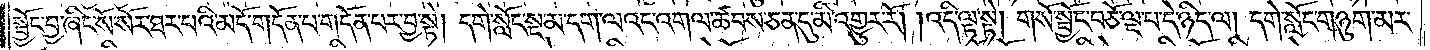སྦྱོང་བྱ་ཞིང་སོ་སོར་ཐར་པའི་མདོ་གདོན་པ་གདོན་པར་བྱ་སྟེ། དགེ་སློང་སྔ་མ་དག་ལའང་འགལ་ཚབས་ཅན་དུ་མི་འགྱུར་རོ། །འདི་ལྟ་སྟེ། གསོ་སྦྱོང་བཅོ་ལྔ་པ་དེ་ཉིད་ལ། དགེ་སློང་གཉུག་མར་
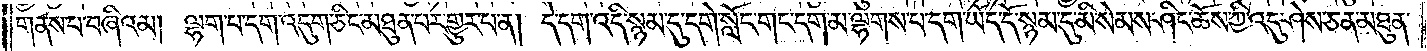གནས་པ་བཞིའམ། ལྷག་པ་དག་འདུག་ཅིང་མཐུན་པར་གྱུར་པ་ན། དེ་དག་འདི་སྙམ་དུ་དགེ་སློང་གང་དག་མ་ལྷགས་པ་དག་ཡོད་དོ་སྙམ་དུ་མི་སེམས་ཤིང་ཆོས་ཀྱི་འདུ་ཤེས་ཅན་མཐུན་
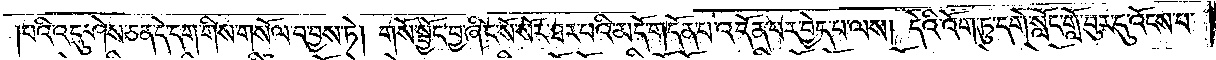པའི་འདུ་ཤེས་ཅན་དེ་དག་གིས་གསོལ་བ་བྱས་ཏེ། གསོ་སྦྱོང་བྱ་ཞིང་སོ་སོར་ཐར་པའི་མདོ་གདོན་པ་འདོན་པར་བྱེད་པ་ལས། དེའི་འོག་ཏུ་དགེ་སློང་གློ་བུར་དུ་འོངས་པ་
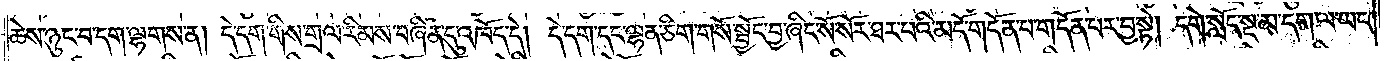ཆེས་ཉུང་བ་དག་ལྷགས་ན། དེ་དག་གིས་གྲལ་རིམས་བཞིན་དུ་འཁོད་དེ། དེ་དག་དང་ལྷན་ཅིག་གསོ་སྦྱོང་བྱ་ཞིང་སོ་སོར་ཐར་པའི་མདོ་གདོན་པ་གདོན་པར་བྱ་སྟེ། དགེ་སློང་སྔ་མ་དག་ལ་ཡང་
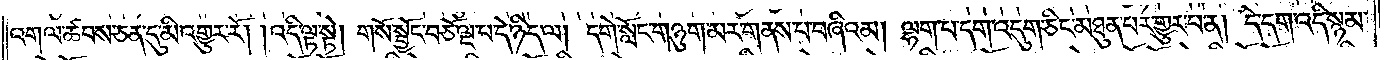འགལ་ཚབས་ཅན་དུ་མི་འགྱུར་རོ། །འདི་ལྟ་སྟེ། གསོ་སྦྱོང་བཅོ་ལྔ་པ་དེ་ཉིད་ལ། དགེ་སློང་གཉུག་མར་གནས་པ་བཞིའམ། ལྷག་པ་དག་འདུག་ཅིང་མཐུན་པར་གྱུར་པ་ན། དེ་དག་འདི་སྙམ་
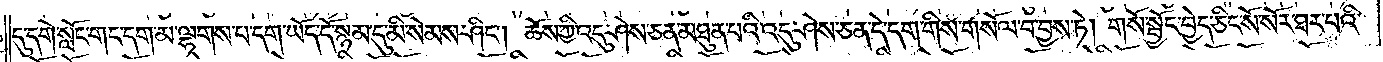དུ་དགེ་སློང་གང་དག་མ་ལྷགས་པ་དག་ཡོད་དོ་སྙམ་དུ་མི་སེམས་ཤིང༌། ཆོས་ཀྱི་འདུ་ཤེས་ཅན་མཐུན་པའི་འདུ་ཤེས་ཅན་དེ་དག་གིས་གསོལ་བ་བྱས་ཏེ། གསོ་སྦྱོང་བྱེད་ཅིང་སོ་སོར་ཐར་པའི་
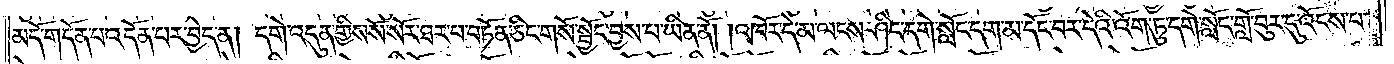མདོ་གདོན་པ་འདོན་པར་བྱེད་ན། དགེ་འདུན་གྱིས་སོ་སོར་ཐར་པ་བཏོན་ཅིང་གསོ་སྦྱོང་བྱས་པ་ཡིན་ནོ། །འཁོར་དེ་མ་ལངས་ཤིང་དགེ་སློང་དག་མ་དོང་བར་དེའི་འོག་ཏུ་དགེ་སློང་གློ་བུར་དུ་འོངས་པ་
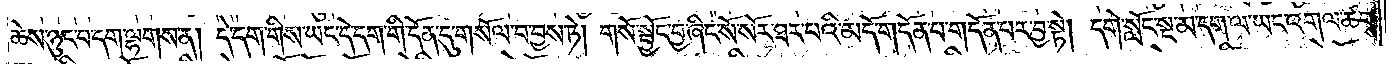ཆེས་ཉུང་བ་དག་ལྷགས་ན། དེ་དག་གིས་ཡང་དེ་དག་གི་དོན་དུ་གསོལ་བ་བྱས་ཏེ། གསོ་སྦྱོང་བྱ་ཞིང་སོ་སོར་ཐར་པའི་མདོ་གདོན་པ་གདོན་པར་བྱ་སྟེ། དགེ་སློང་སྔ་མ་དག་ལ་ཡང་འགལ་ཚབས་
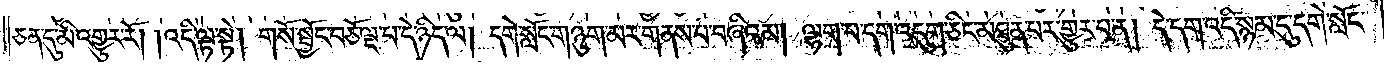ཅན་དུ་མི་འགྱུར་རོ། །འདི་ལྟ་སྟེ། གསོ་སྦྱོང་བཅོ་ལྔ་པ་དེ་ཉིད་ལ། དགེ་སློང་གཉུག་མར་གནས་པ་བཞིའམ། ལྷག་པ་དག་འདུག་ཅིང་མཐུན་པར་གྱུར་པ་ན། དེ་དག་འདི་སྙམ་དུ་དགེ་སློང་
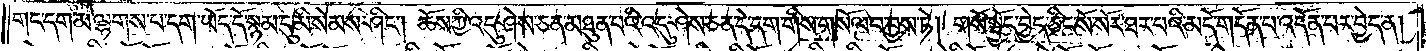གང་དག་མ་ལྷགས་པ་དག་ཡོད་དོ་སྙམ་དུ་མི་སེམས་ཤིང༌། ཆོས་ཀྱི་འདུ་ཤེས་ཅན་མཐུན་པའི་འདུ་ཤེས་ཅན་དེ་དག་གིས་གསོལ་བ་བྱས་ཏེ། གསོ་སྦྱོང་བྱེད་ཅིང་སོ་སོར་ཐར་པའི་མདོ་གདོན་པ་འདོན་པར་བྱེད་ན།
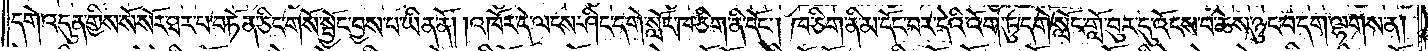དགེ་འདུན་གྱིས་སོ་སོར་ཐར་པ་བཏོན་ཅིང་གསོ་སྦྱོང་བྱས་པ་ཡིན་ནོ། །འཁོར་དེ་ལངས་ཤིང་དགེ་སློང་ཁ་ཅིག་ནི་དོང༌། ཁ་ཅིག་ནི་མ་དོང་བར་དེའི་འོག་ཏུ་དགེ་སློང་གློ་བུར་དུ་འོངས་པ་ཆེས་ཉུང་བ་དག་ལྷགས་ན།
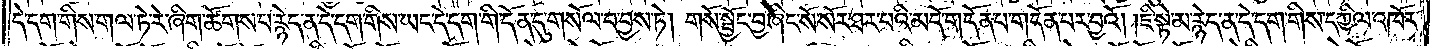དེ་དག་གིས་གལ་ཏེ་རེ་ཞིག་ཚོགས་པ་རྙེད་ན་དེ་དག་གིས་ཡང་དེ་དག་གི་དོན་དུ་གསོལ་བ་བྱས་ཏེ། གསོ་སྦྱོང་བྱ་ཞིང་སོ་སོར་ཐར་བའི་མདོ་གདོན་པ་གདོན་པར་བྱའོ། །ཇི་སྟེ་མ་རྙེད་ན་དེ་དག་གིས་དཀྱིལ་འཁོར་
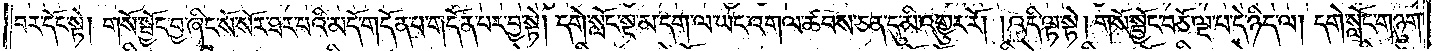བར་དོང་སྟེ། གསོ་སྦྱོང་བྱ་ཞིང་སོ་སོར་ཐར་པའི་མདོ་གདོན་པ་གདོན་པར་བྱ་སྟེ། དགེ་སློང་སྔ་མ་དག་ལ་ཡང་འགལ་ཚབས་ཅན་དུ་མི་འགྱུར་རོ། །འདི་ལྟ་སྟེ། གསོ་སྦྱོང་བཅོ་ལྔ་པ་དེ་ཉིད་ལ། དགེ་སློང་གཉུག་
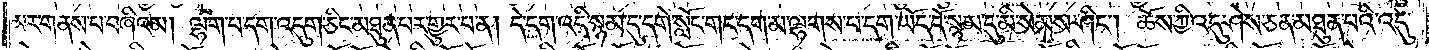མར་གནས་པ་བཞིའམ། ལྷག་པ་དག་འདུག་ཅིང་མཐུན་པར་གྱུར་པ་ན། དེ་དག་འདི་སྙམ་དུ་དགེ་སློང་གང་དག་མ་ལྷགས་པ་དག་ཡོད་དོ་སྙམ་དུ་མི་སེམས་ཤིང༌། ཆོས་ཀྱི་འདུ་ཤེས་ཅན་མཐུན་པའི་འདུ་
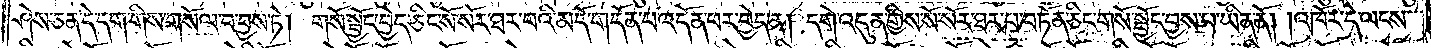ཤེས་ཅན་དེ་དག་གིས་གསོལ་བ་བྱས་ཏེ། གསོ་སྦྱོང་བྱེད་ཅིང་སོ་སོར་ཐར་པའི་མདོ་གདོན་པ་འདོན་པར་བྱེད་ན། དགེ་འདུན་གྱིས་སོ་སོར་ཐར་པ་བཏོན་ཅིང་གསོ་སྦྱོང་བྱས་པ་ཡིན་ནོ། །འཁོར་དེ་ལངས་
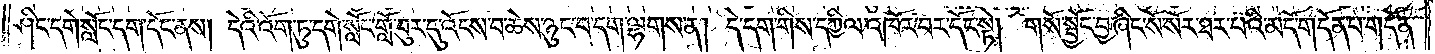ཤིང་དགེ་སློང་དག་དོང་ནས། དེའི་འོག་ཏུ་དགེ་སློང་གློ་བུར་དུ་འོངས་བ་ཆེས་ཉུང་བ་དག་ལྷགས་ན། དེ་དག་གིས་དཀྱིལ་འཁོར་བར་དོང་སྟེ། གསོ་སྦྱོང་བྱ་ཞིང་སོ་སོར་ཐར་པའི་མདོ་གདོན་པ་གདོན་
